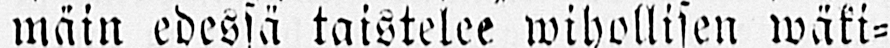waltaa wastaan, woi, wihdoin wii-
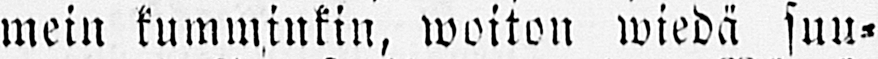mein kumminkin, woiton wiedä suu-
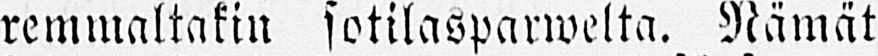remmaltakin sotilasparwelta. Nämät
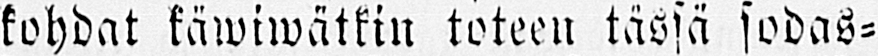kohdat käwiwätkin toteen tässä sodas-
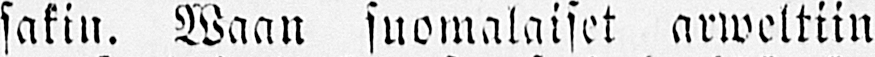sakin. Waan suomalaiset arweltiin
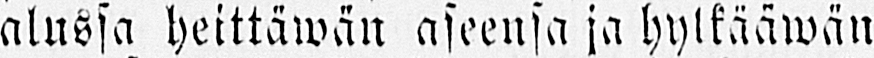alussa heittäwän aseensa ja hylkääwän
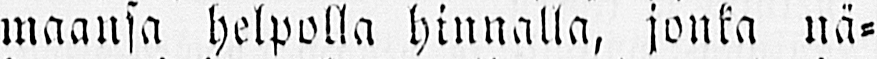maansa helpolla hinnalla, jonka nä-
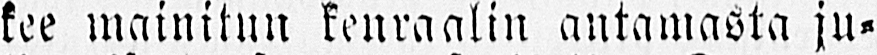kee mainitun kenraalin antamasta ju-
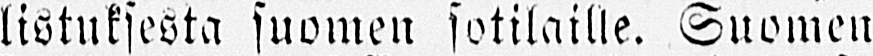listuksesta suomen sotilaille. Suomen
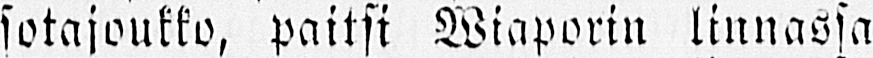sotajoukko, paitsi Wiaporin linnassa
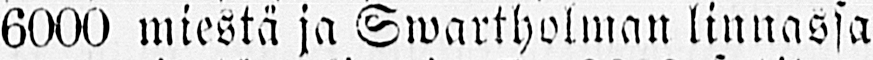6000 miestä ja Swartholman linnassa
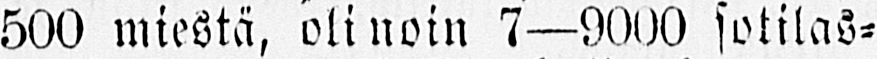500 miestä, oli noin 7 —9000 sotilas-
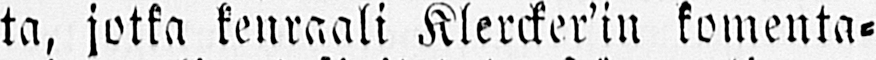ta, jotka kenraali Klercker'in komenta-
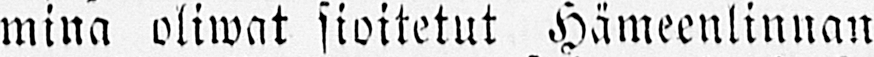mina oliwat sioitetut Hämeenlinnan
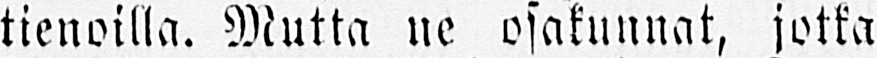tienoilla. Mutta ne osakunnat, jotka
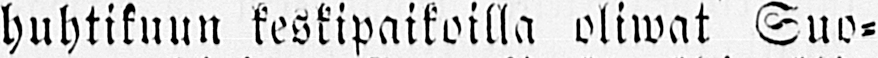huhtikuun koskipaikoilla oliwat Suo-
